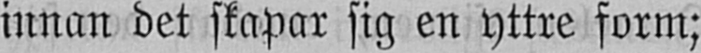innan det skapar sig en yttre form;
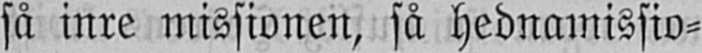så inre missionen, så hednamissio-
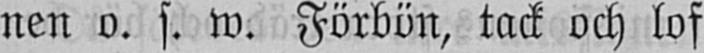nen o. s. w. Förbön, tack och lof
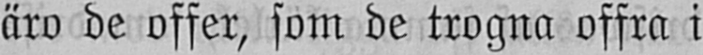äro de offer, som de trogna offra i
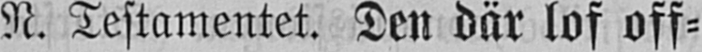N. Testamentet. Den där lof off-
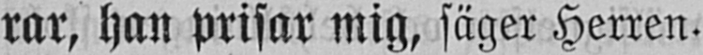rar, han prisar mig, säger Herren.
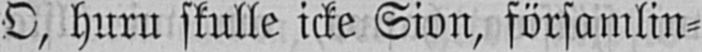O, huru skulle icke Sion, församlin-
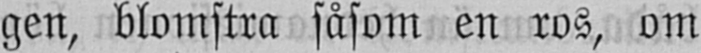gen, blomstra såsom en rus, om
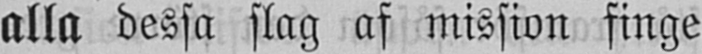alla dessa slag af mission finge
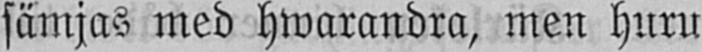sämjas med hwarandra, men huru
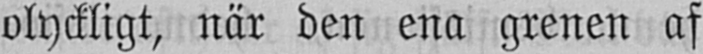olyckligt, när den ena grenen af
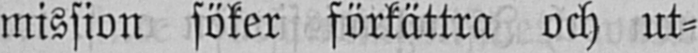mission söker förkättra och ut-
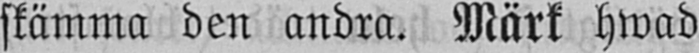skämma den andra. Märk hwad
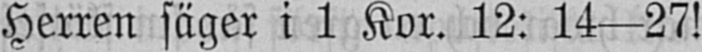Herren säger i 1 Kor. 12: 14—27!
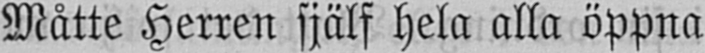Måtte Herren själf hela alla öppna
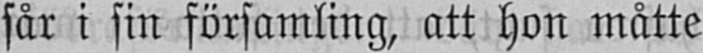sår i sin församling, att hon måtte
